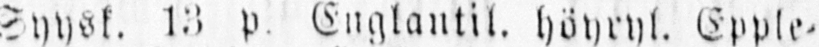Syysk. 13 p. Englantil. höyryl. Epple-
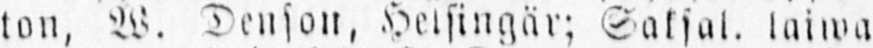ton, W. Denson, Helsingär; Saksal. laiwa
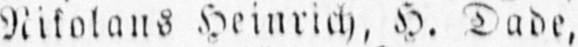Nikolans Heinrich, H. Dade, Köpenhamina,
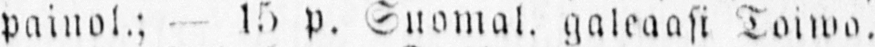painol.; — 15 p. Suomal. galeaasi Toiwo.
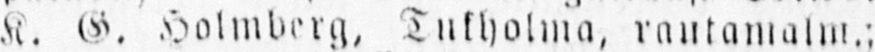K. G. Holmberg, Tukholma, rautamalm.;
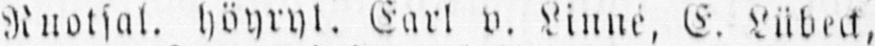Ruotsal. höyryl. Earl v. Linné, E. Lübeck,
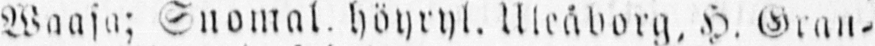Waasa; Suomal, höyryl. Uleåborg, H. Gran-
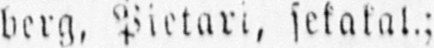berg, Pietari, sekakal.;
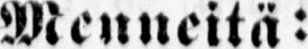Menneitä:
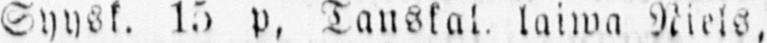Syysk. 15 p, Tanskal. laiwa Niels, C.
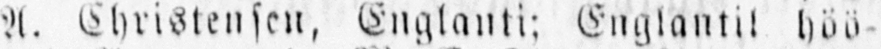A. Christensen, Englanti: Englantil höö-
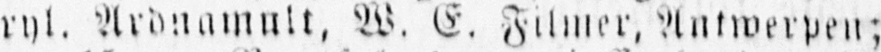ryl. Ardnamult, W. E. Filmer, Antwerpen;
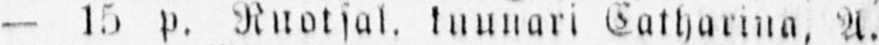— 15 p. Ruotsal. kuunari Catharina, A.
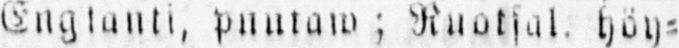Nilsson, Englanti, puutaw; Ruotsal, höy-
